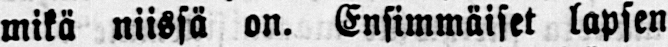mikä niissä on. Ensimmäiset lapsen
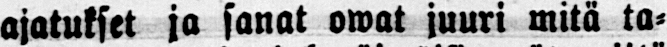ajatukset ja sanat owat juuri mitä ta-
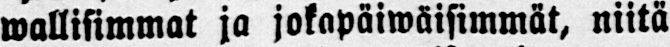wallisimmat ja jokapäiwäisimmät, niitä
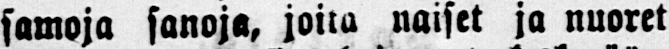samoja sanoja, joita naiset ja nuoret
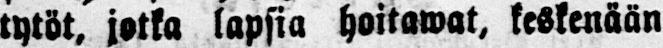tytöt, jotka lapsia hoitawat, keskenään
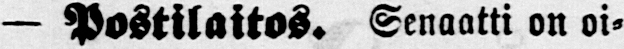— Postilaitos. Senaatti on oi-
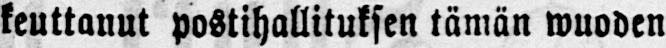keuttanut postihallituksen tämän wuoden
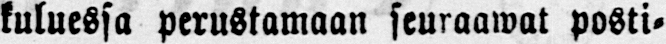kuluessa perustamaan seuraawat posti-
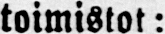toimistot:
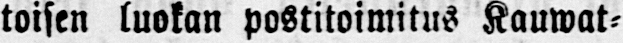toisen luokan postitoimitus Kauwat-
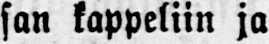san kappeliin ja
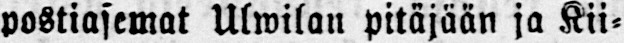postiasemat Ulwilan pitäjään ja Kii-
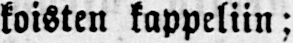koisten kappeliin;
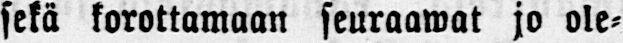sekä korottamaan seuraawat jo ole-
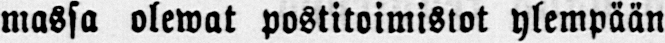massa olewat postitoimistot ylempään
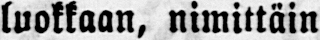luokkaan, nimittäin
